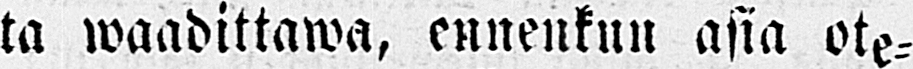ta waadittawa, ennenkun asia ote-
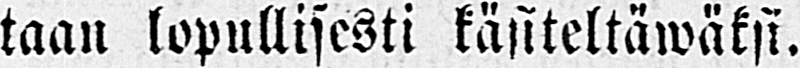taan lopullisesti käsiteltäwäksi.
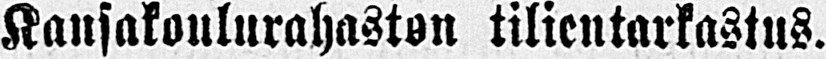Kansakoulurahaston tilientarkastus.
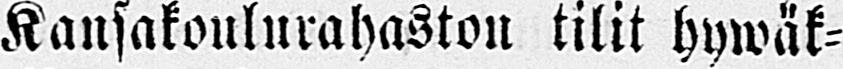Kansakoulurahaston tilit hywäk-
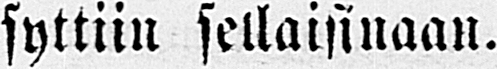syttiin sellaisinaan.
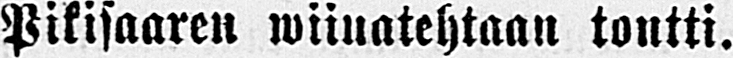Pikisaaren wiiuatehtaan tontti.
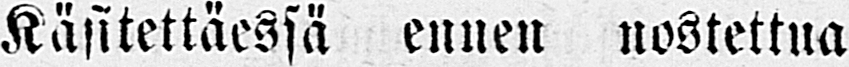Käsitettäessä ennen nostettua
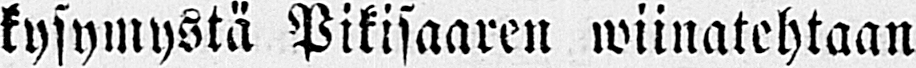kysymystä Pikisaaren wiinatehtaan
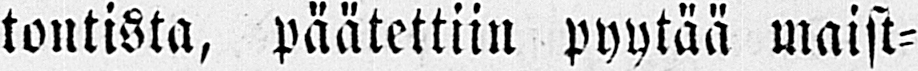tontista, päätettiin pyytää maist-
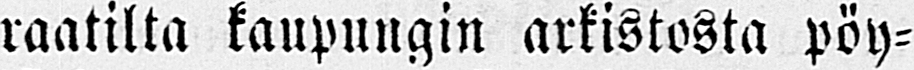raatilta kaupungin arkistosta pöy-
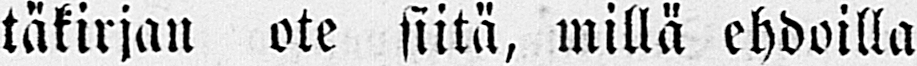täkirjan ote siitä, millä ehdoilla
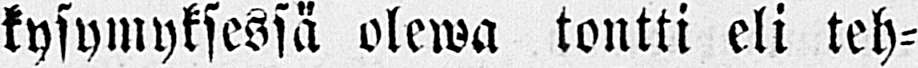kysymyksessä olewa tontti eli teh-
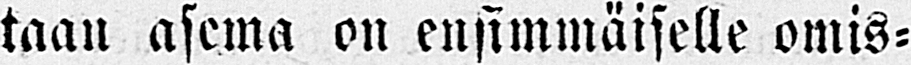taan asema on ensimmäiselle omis-
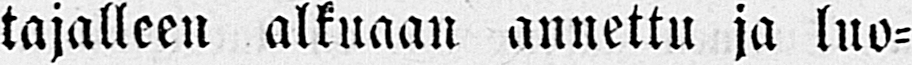tajalleen alkuaan annettu ja luo-
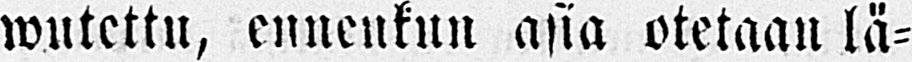wuntettu, ennenkun asia otetaan lä-
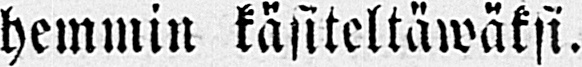hemmin käsiteltäwäksi.
